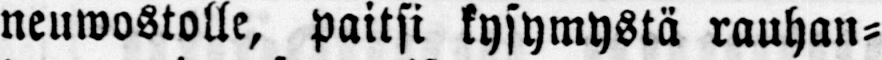neuwostolle, paitsi kysymystä rauhan-
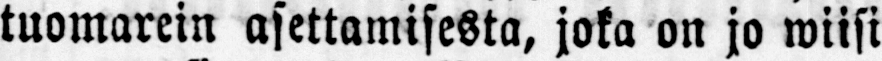tuomarein asettamisesta, joka on jo wiisi
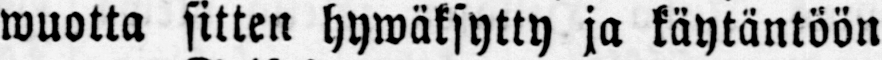wuotta sitten hywäksytty ja käytäntöön
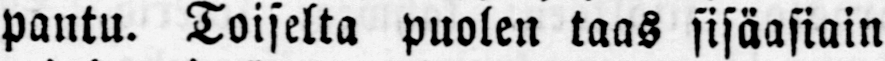pantu. Toiselta puolen taas sisäasiain
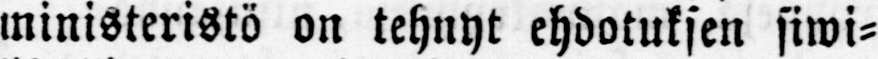ministeristö on tehnyt ehdotuksen siwi-
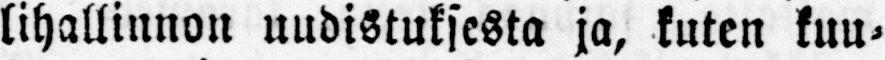lihallinnon uudistuksesta ja, kuten kuu-
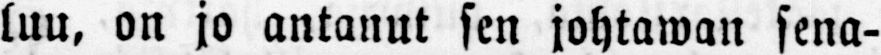luu, on jo antanut sen johtawan sena-
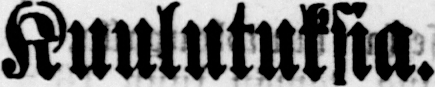Kuulutuksia.
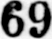69
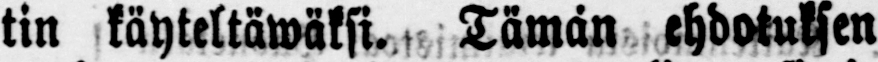tin käyteltäwäksi. Tämän ehdotuksen
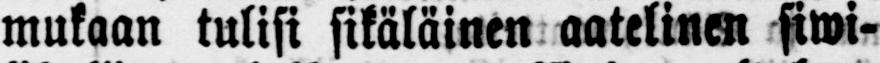mukaan tulisi sikäläinen aatelinen siwi-
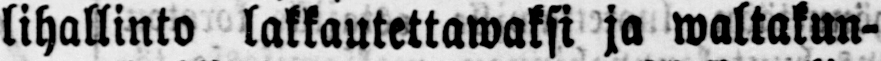lihallinto lakkautettawaksi ja waltakun-
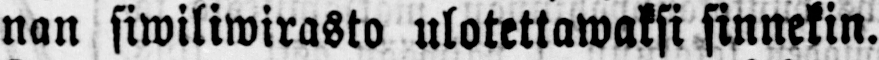nan siwiliwirasto ulotettawaksi sinnekin.
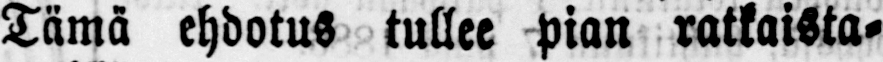Tämä ehdotus tullee pian ratkaista-
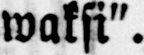waksi".
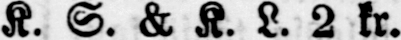K. S. & K. L. 2 kr.
